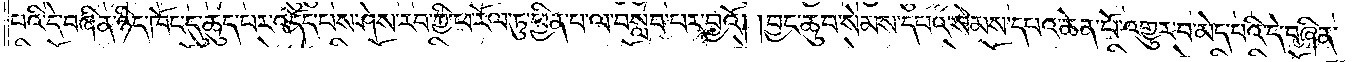པའི་དེ་བཞིན་ཉིད་ཁོང་དུ་ཆུད་པར་འདོད་པས་ཤེས་རབ་ཀྱི་ཕ་རོལ་ཏུ་ཕྱིན་པ་ལ་བསླབ་པར་བྱའོ། །བྱང་ཆུབ་སེམས་དཔའ་སེམས་དཔའ་ཆེན་པོ་འགྱུར་བ་མེད་པའི་དེ་བཞིན་
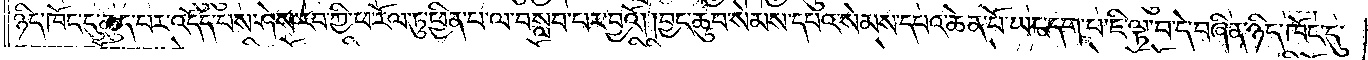ཉིད་ཁོང་དུ་ཆུད་པར་འདོད་པས་ཤེས་རབ་ཀྱི་ཕ་རོལ་ཏུ་ཕྱིན་པ་ལ་བསླབ་པར་བྱའོ། །བྱང་ཆུབ་སེམས་དཔའ་སེམས་དཔའ་ཆེན་པོ་ཡང་དག་པ་ཇི་ལྟ་བ་དེ་བཞིན་ཉིད་ཁོང་དུ་
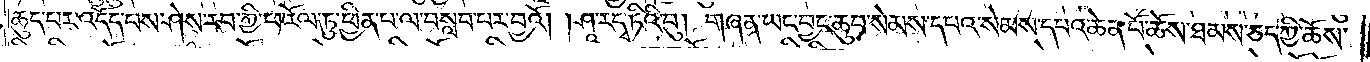ཆུད་པར་འདོད་པས་ཤེས་རབ་ཀྱི་ཕ་རོལ་ཏུ་ཕྱིན་པ་ལ་བསླབ་པར་བྱའོ། །ཤཱ་ར་དྭ་ཏིའི་བུ། གཞན་ཡང་བྱང་ཆུབ་སེམས་དཔའ་སེམས་དཔའ་ཆེན་པོ་ཆོས་ཐམས་ཅད་ཀྱི་ཆོས་
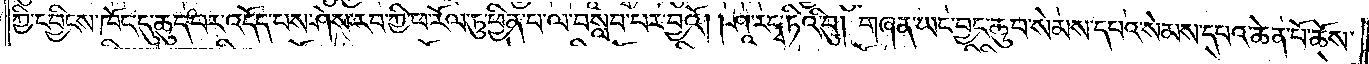ཀྱི་དབྱིངས་ཁོང་དུ་ཆུད་པར་འདོད་པས་ཤེས་རབ་ཀྱི་ཕ་རོལ་ཏུ་ཕྱིན་པ་ལ་བསླབ་པར་བྱའོ། །ཤཱ་ར་དྭ་ཏིའི་བུ། གཞན་ཡང་བྱང་ཆུབ་སེམས་དཔའ་སེམས་དཔའ་ཆེན་པོ་ཆོས་
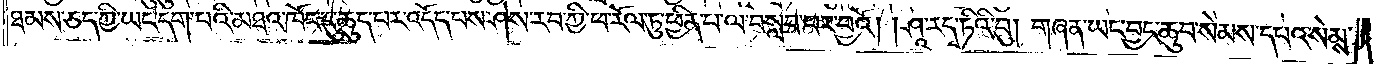ཐམས་ཅད་ཀྱི་ཡང་དག་པའི་མཐའ་ཁོང་དུ་ཆུད་པར་འདོད་པས་ཤེས་རབ་ཀྱི་ཕ་རོལ་ཏུ་ཕྱིན་པ་ལ་བསླབ་པར་བྱའོ། །ཤཱ་ར་དྭ་ཏིའི་བུ། གཞན་ཡང་བྱང་ཆུབ་སེམས་དཔའ་སེམས་
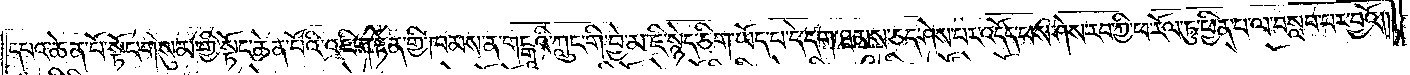དཔའ་ཆེན་པོ་སྟོང་གསུམ་གྱི་སྟོང་ཆེན་པོའི་འཇིག་རྟེན་གྱི་ཁམས་ན་གངྒཱའི་ཀླུང་གི་བྱ་མ་ཇི་སྙེད་ཅིག་ཡོད་པ་དེ་དག་ཐམས་ཅད་ཤེས་པར་འདོད་པས་ཤེས་རབ་ཀྱི་ཕ་རོལ་ཏུ་ཕྱིན་པ་ལ་བསླབ་པར་བྱའོ༎
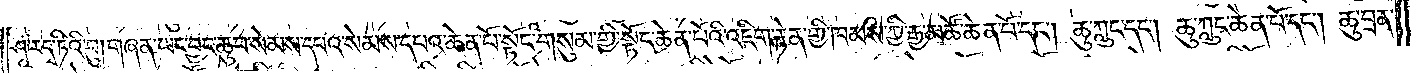ཤཱ་ར་དྭ་ཏིའི་བུ། གཞན་ཡང་བྱང་ཆུབ་སེམས་དཔའ་སེམས་དཔའ་ཆེན་པོ་སྟོང་གསུམ་གྱི་སྟོང་ཆེན་པོའི་འཇིག་རྟེན་གྱི་ཁམས་ཀྱི་རྒྱ་མཚོ་ཆེན་པོ་དང༌། ཆུ་ཀླུང་དང༌། ཆུ་ཀླུང་ཆེན་པོ་དང༌། ཆུ་བྲན་
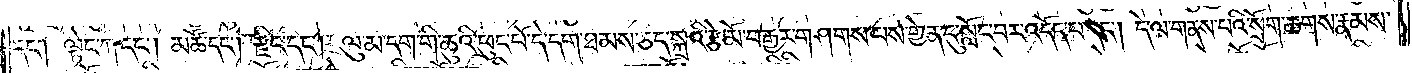དང༌། ལྟེང་ཀ་དང༌། མཚོ་དང༌། རྫིང་དང༌། ལུ་མ་དག་གི་ཆུའི་ཕུང་པོ་དེ་དག་ཐམས་ཅད་སྐྲའི་རྩེ་མོ་བརྒྱར་གཤགས་པས་གྱེན་དུ་སློང་བར་འདོད་པ་དང༌། དེ་ལ་གནས་པའི་སྲོག་ཆགས་རྣམས་
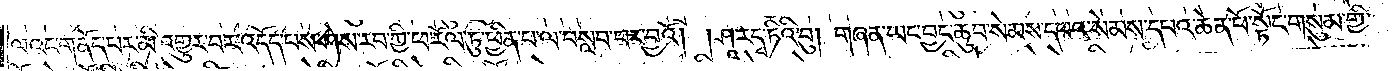ལའང་གནོད་པར་མི་འགྱུར་བར་འདོད་པས་ཤེས་རབ་ཀྱི་ཕ་རོལ་ཏུ་ཕྱིན་པ་ལ་བསླབ་པར་བྱའོ། །ཤཱ་ར་དྭ་ཏིའི་བུ། གཞན་ཡང་བྱང་ཆུབ་སེམས་དཔའ་སེམས་དཔའ་ཆེན་པོ་སྟོང་གསུམ་གྱི་
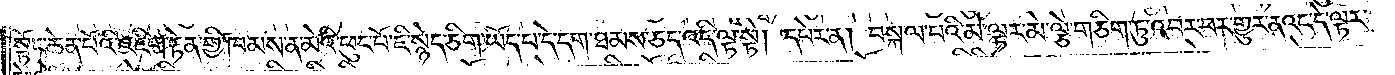སྟོང་ཆེན་པོའི་འཇིག་རྟེན་གྱི་ཁམས་ན་མེའི་ཕུང་པོ་ཇི་སྙེད་ཅིག་ཡོད་པ་དེ་དག་ཐམས་ཅད་འདི་ལྟ་སྟེ། དཔེར་ན། བསྐལ་པའི་མེ་ལྟར་མེ་ལྕེ་གཅིག་ཏུ་འབར་བར་འགྱུར་ནའང་དེ་ལྟར་
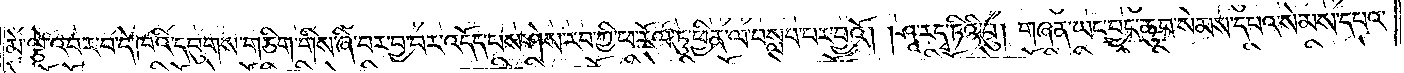མེ་ལྕེ་འབར་བ་དེ་ཁའི་དབུགས་གཅིག་གིས་ཞི་བར་བྱ་བར་འདོད་པས་ཤེས་རབ་ཀྱི་ཕ་རོལ་ཏུ་ཕྱིན་ལ་བསླབ་པར་བྱའོ། །ཤཱ་ར་དྭ་ཏིའི་བུ། གཞན་ཡང་བྱང་ཆུབ་སེམས་དཔའ་སེམས་དཔའ་
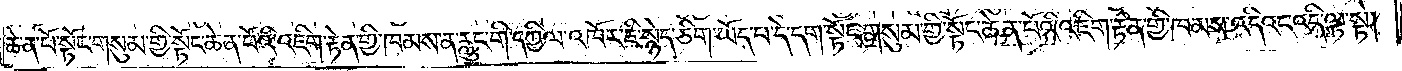ཆེན་པོ་སྟོང་གསུམ་གྱི་སྟོང་ཆེན་པོའི་འཇིག་རྟེན་གྱི་ཁམས་ན་རླུང་གི་དཀྱིལ་འཁོར་ཇི་སྙེད་ཅིག་ཡོད་པ་དེ་དག་སྟོང་གསུམ་གྱི་སྟོང་ཆེན་པོའི་འཇིག་རྟེན་གྱི་ཁམས་འདིའང་འདི་ལྟ་སྟེ།
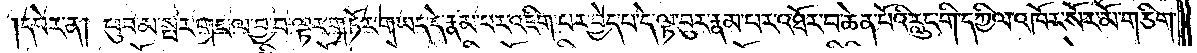དཔེར་ན། ཕུབ་མ་སྤར་གང་ལ་བྱ་བ་ལྟར་གཏོར་གཡང་དེ་རྣམ་པར་འཇིག་པར་བྱེད་པ་དེ་ལྟ་བུར་རྣམ་པར་འཐོར་བ་ཆེན་པོའི་རླུང་གི་དཀྱིལ་འཁོར་སོར་མོ་གཅིག་
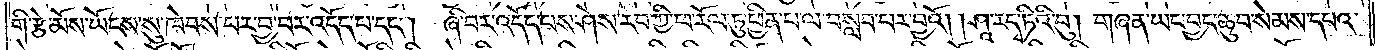གི་རྩེ་མོས་ཡོངས་སུ་ཁེབས་པར་བྱ་བར་འདོད་པ་དང༌། ཞི་བར་འདོད་པས་ཤེས་རབ་ཀྱི་ཕ་རོལ་ཏུ་ཕྱིན་པ་ལ་བསླབ་པར་བྱའོ། །ཤཱ་ར་དྭ་ཏིའི་བུ། གཞན་ཡང་བྱང་ཆུབ་སེམས་དཔའ་
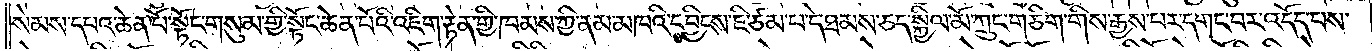སེམས་དཔའ་ཆེན་པོ་སྟོང་གསུམ་གྱི་སྟོང་ཆེན་པོའི་འཇིག་རྟེན་གྱི་ཁམས་ཀྱི་ནམ་མཁའི་དབྱིངས་ཇི་ཙམ་པ་དེ་ཐམས་ཅད་སྐྱིལ་མོ་ཀྲུང་གཅིག་གིས་རྒྱས་པར་དགང་བར་འདོད་པས་
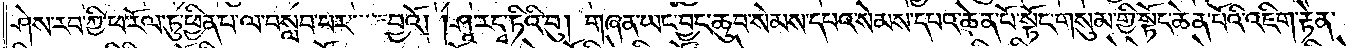ཤེས་རབ་ཀྱི་ཕ་རོལ་ཏུ་ཕྱིན་པ་ལ་བསླབ་པར་བྱའོ། །ཤཱ་ར་དྭ་ཏིའི་བུ། གཞན་ཡང་བྱང་ཆུབ་སེམས་དཔའ་སེམས་དཔའ་ཆེན་པོ་སྟོང་གསུམ་གྱི་སྟོང་ཆེན་པོའི་འཇིག་རྟེན་
